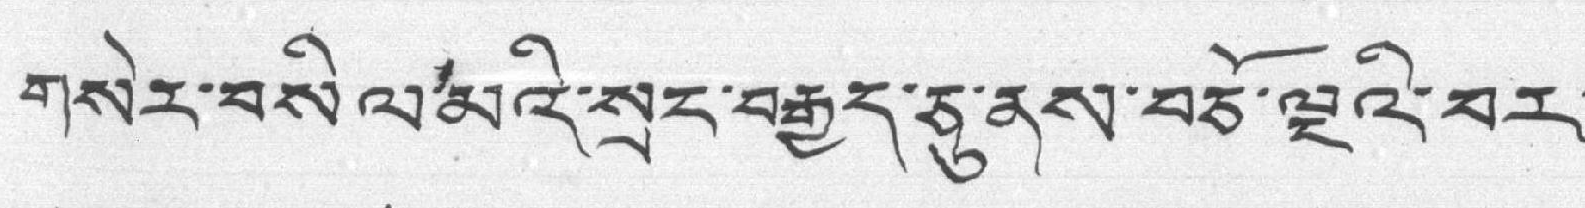གསེར་བསིལ་མའི་སྲང་བརྒྱད་ཅུ་ནས་བཅོ་ལྔའི་བར་
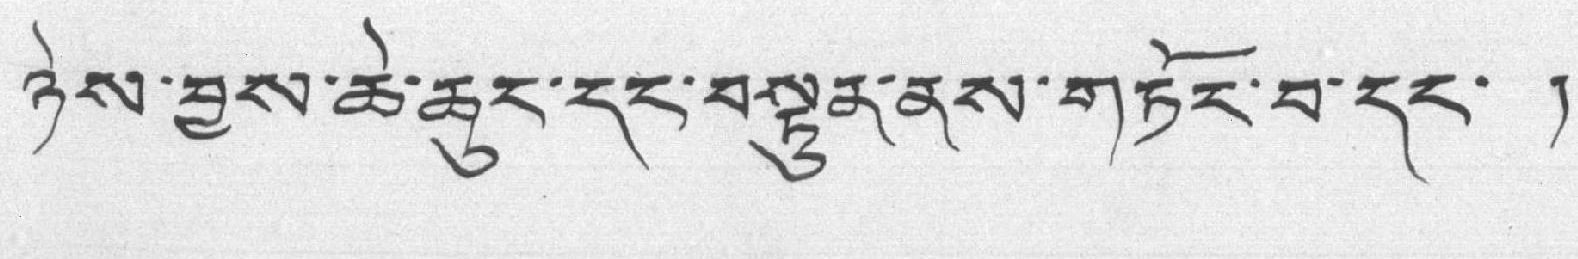ཉེས་བྱས་ཆེ་ཆུང་དང་བསྟུན་ནས་གཏོང་བ་དང་ །
